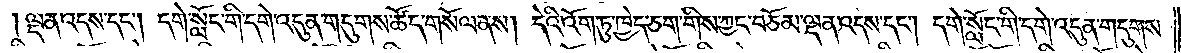།ལྡན་འདས་དང༌། དགེ་སློང་གི་དགེ་འདུན་གདུགས་ཚོད་གསོལ་ནས། དེའི་འོག་ཏུ་ཁྱེད་ཅག་གིས་ཀྱང་བཅོམ་ལྡན་འདས་དང༌། དགེ་སློང་གི་དགེ་འདུན་གདུགས་
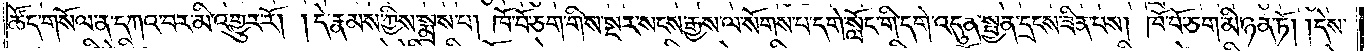ཚོད་གསོལ་ན་དཀའ་བར་མི་འགྱུར་རོ། །དེ་རྣམས་ཀྱིས་སྨྲས་པ། ཁོ་བོ་ཅག་གིས་སྔར་སངས་རྒྱས་ལ་སོགས་པ་དགེ་སློང་གི་དགེ་འདུན་སྤྱན་དྲངས་ཟིན་པས། ཁོ་བོ་ཅག་མི་ཉན་ཏོ། །དེས་
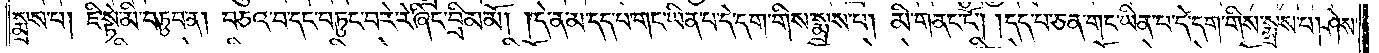སྨྲས་པ། ཇི་སྟེ་མི་བཏུབ་ན། བཅའ་བ་དང་བཏུང་བ་རེ་རེ་ཞིང་བྲིམ་མོ། །དེ་ན་མ་དད་པ་གང་ཡིན་པ་དེ་དག་གིས་སྨྲས་པ། མི་གནང་ངོ༌། །དད་པ་ཅན་གང་ཡིན་པ་དེ་དག་གིས་སྨྲས་པ། ཤེས་
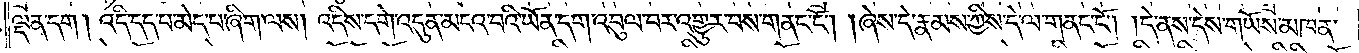ལྡན་དག། འདི་དད་པ་མེད་པ་ཞིག་ལས། འདིས་དགེ་འདུན་མངའ་བའི་ཡོན་དག་འབུལ་བར་འགྱུར་བས་གནང་ངོ༌། །ཞེས་དེ་རྣམས་ཀྱིས་དེ་ལ་གནང་ངོ༌། །དེ་ནས་དེས་གཡོས་མཁན་
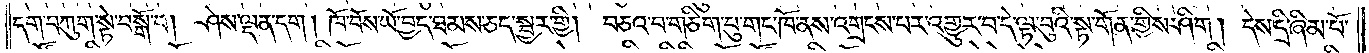དག་བཀུག་སྟེ་བསྒོ་བ། ཤེས་ལྡན་དག། ཁོ་བོས་ཡོ་བྱད་ཐམས་ཅད་སྦྱར་གྱི། བཅའ་བ་གཅིག་པུ་གང་ཁོ་ནས་འགྲངས་པར་འགྱུར་བ་དེ་ལྟ་བུའི་སྟ་གོན་གྱིས་ཤིག། དེས་དྲི་ཞིམ་པོ་
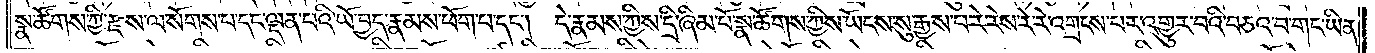སྣ་ཚོགས་ཀྱི་རྫས་ལ་སོགས་པ་དང་ལྡན་པའི་ཡོ་བྱད་རྣམས་ཕོག་པ་དང༌། དེ་རྣམས་ཀྱིས་དྲི་ཞིམ་པོ་སྣ་ཚོགས་ཀྱིས་ཡོངས་སུ་རྒྱས་པ་རེ་རེས་རེ་རེ་འགྲངས་པར་འགྱུར་པའི་བཅའ་བ་གང་ཡིན་
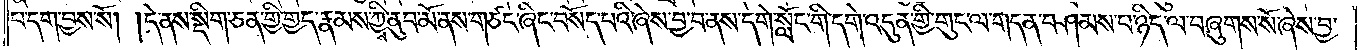པ་དག་བྱས་སོ། །དེ་ནས་སྡིག་ཅན་གྱི་གྱད་རྣམས་ཀྱིས་ནུབ་མོ་ནས་གཙང་ཞིང་བསོད་པའི་ཞེས་བྱ་བ་ནས་དགེ་སློང་གི་དགེ་འདུན་གྱི་གུང་ལ་གདན་བཤམས་པ་ཉིད་ལ་བཞུགས་སོ་ཞེས་བྱ་
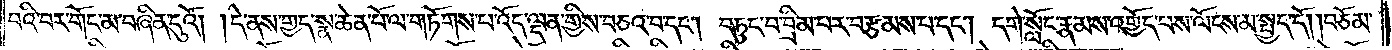བའི་བར་གོང་མ་བཞིན་དུའོ། །དེ་ནས་གྱད་སྣ་ཆེན་པོ་ལ་གཏོགས་པ་འོད་ལྡན་གྱིས་བཅའ་བ་དང༌། བཏུང་བ་བྲིམ་པར་བརྩམས་པ་དང༌། དགེ་སློང་རྣམས་འགྱོད་བས་ལོངས་མ་སྤྱད་དོ། །བཅོམ་
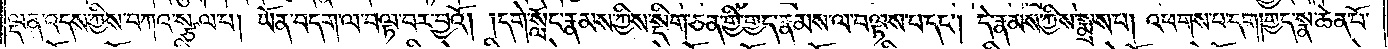ལྡན་འདས་ཀྱིས་བཀའ་སྩལ་པ། ཡོན་བདག་ལ་བལྟ་བར་བྱའོ། །དགེ་སློང་རྣམས་ཀྱིས་སྡིག་ཅན་གྱི་གྱད་རྣམས་ལ་བལྟས་པ་དང༌། དེ་རྣམས་ཀྱིས་སྨྲས་པ། འཕགས་པ་དག། གྱད་སྣ་ཆེན་པོ་
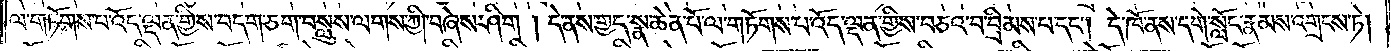ལ་གཏོགས་པ་འོད་ལྡན་གྱིས་བདག་ཅག་བསླུས་ལགས་ཀྱི། བཞེས་ཤིག །དེ་ནས་གྱད་སྣ་ཆེན་པོ་ལ་གཏོགས་པ་འོད་ལྡན་གྱིས་བཅའ་བ་བྲིམས་པ་དང༌། དེ་ཁོ་ནས་དགེ་སློང་རྣམས་འགྲངས་ཏེ།
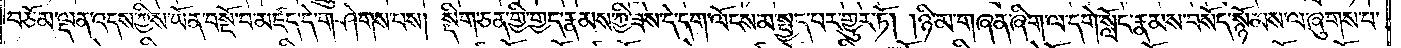བཅོམ་ལྡན་འདས་ཀྱིས་ཡོན་བསྔོ་བ་མཛད་དེ་གཤེགས་པས། སྡིག་ཅན་གྱི་གྱད་རྣམས་ཀྱི་ཟས་དེ་དག་ལོངས་མ་སྤྱད་པར་གྱུར་ཏོ། །ཉི་མ་གཞན་ཞིག་ལ་དགེ་སློང་རྣམས་བསོད་སྙོམས་ལ་ཞུགས་པ་
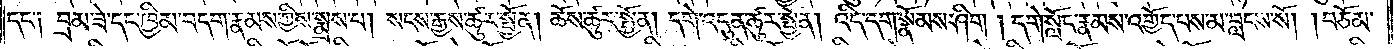དང་༑ བྲམ་ཟེ་དང་ཁྱིམ་བདག་རྣམས་ཀྱིས་སྨྲས་པ། སངས་རྒྱས་ཚུར་སྤྱོན། ཆོས་ཚུར་སྤྱོན། དགེ་འདུན་ཚུར་སྤྱོན། འདི་དག་སྣོམས་ཤིག། དགེ་སློང་རྣམས་འགྱོད་པས་མ་བླངས་སོ། །བཅོམ་
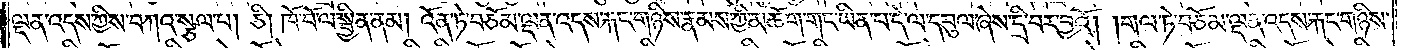ལྡན་འདས་ཀྱིས་བཀའ་སྩལ་པ། ཅི། ཁོ་བོ་ལ་སྦྱིན་ནམ། འོན་ཏེ་བཅོམ་ལྡན་འདས་རྐང་གཉིས་རྣམས་ཀྱི་མཆོག་གང་ཡིན་པ་དེ་ལ་དབུལ་ཞེས་དྲི་བར་བྱའོ། །གལ་ཏེ་བཅོམ་ལྡན་འདས་རྐང་གཉིས་
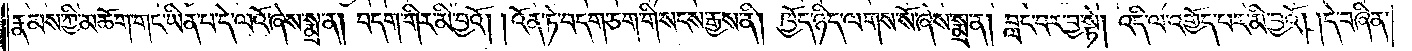རྣམས་ཀྱི་མཆོག་གང་ཡིན་པ་དེ་ལའོ་ཞེས་སྨྲ་ན། བདག་གིར་མི་བྱའོ། །འོན་ཏེ་བདག་ཅག་གི་སངས་རྒྱས་ནི། ཁྱོད་ཉིད་ལགས་སོ་ཞེས་སྨྲ་ན། བླང་བར་བྱ་སྟེ། འདི་ལ་འགྱོད་པར་མི་བྱའོ། །དེ་བཞིན་
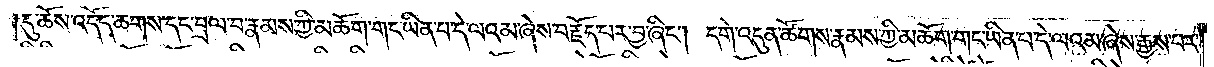དུ་ཆོས་འདོད་ཆགས་དང་བྲལ་བ་རྣམས་ཀྱི་མཆོག་གང་ཡིན་པ་དེ་ལའམ་ཞེས་བརྗོད་པར་བྱ་ཞིང༌། དགེ་འདུན་ཚོགས་རྣམས་ཀྱི་མཆོག་གང་ཡིན་པ་དེ་ལའམ་ཞེས་རྒྱས་པར་
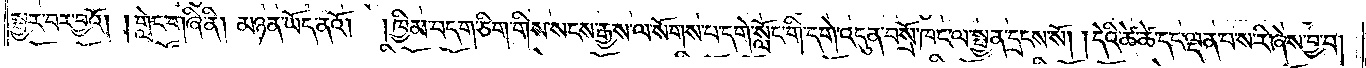སྦྱར་པར་བྱའོ། །གླེང་གཞི་ནི། མཉན་ཡོད་ནའོ། །ཁྱིམ་བདག་ཅིག་གིས་སངས་རྒྱས་ལ་སོགས་པ་དགེ་སློང་གི་དགེ་འདུན་བསྲོ་ཁང་ལ་སྤྱན་དྲངས་སོ། །དེའི་ཚེ་ཚེ་དང་ལྡན་པས་རི་ཞེས་བྱ་བ།
